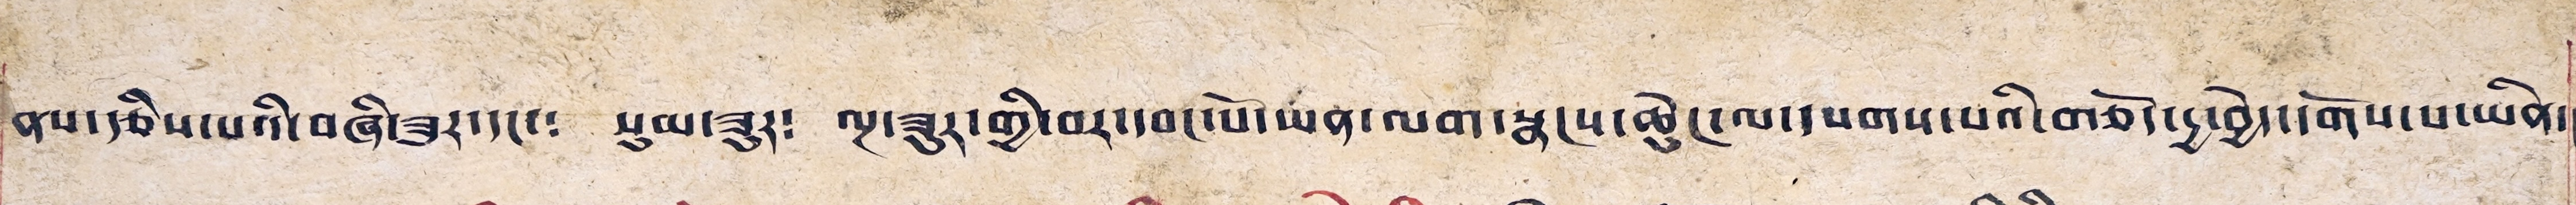ནས་རྩིས་པའི་བཞི་ཟུར་དང་༴ སུམ་ཟུར། ལྔ་ཟུར་གྱི་བར་དབང་པོ་ཡན་ལག་སྣངས་ཆེུང་ལ་དཔགས་པའི་གཅོད་དྱ་བྱེད་དགོས་པ་ཡིན།
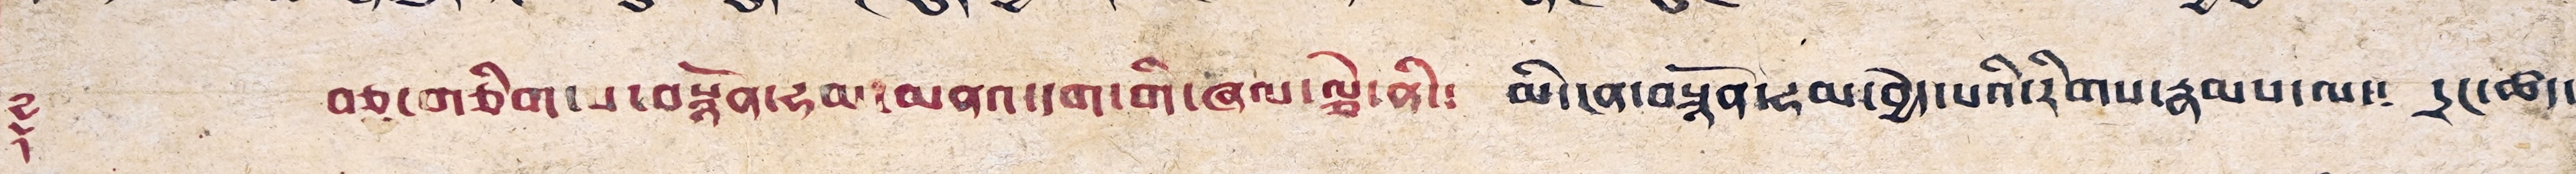༈ བཅུ་གཅིག་པ་བསྙོན་ཧམ་མནའ་དག་གི་ཞལ་ལྕེ་ནི་༴ མི་ངན་བསྙོན་ཧམ་བྱེད་པའི་རིགས་རྣམས་ལ་༴ དྲང་ཚད་
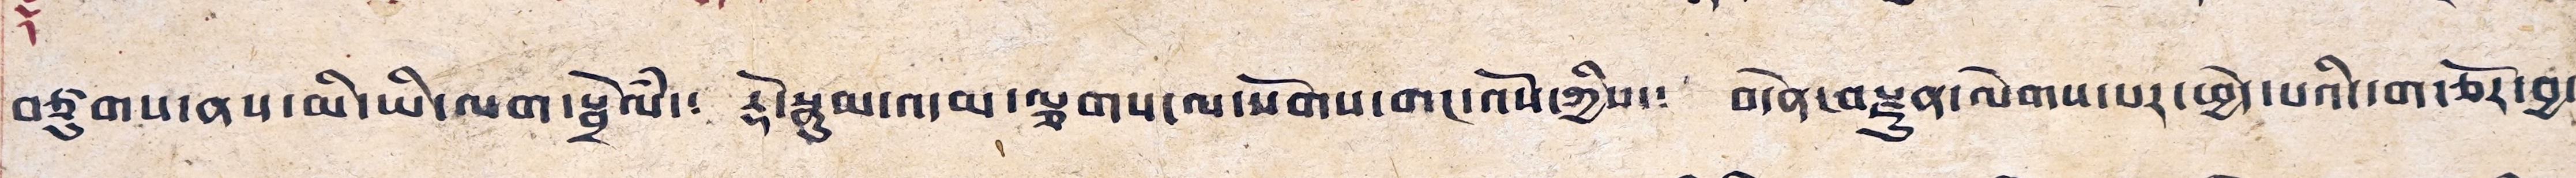བཙུགས་ནས་མི་ཡི་ལག་སྦྲེལཾ་༴ རྡོ་སྣུམ་འདམ་ལྕགས་ལ་སོགས་གང་འོས་ཀྱིས་༴ བདེན་བརྫུན་ལེགས་པར་ཕྱེད་པའི་གཙོར་བྱ༴
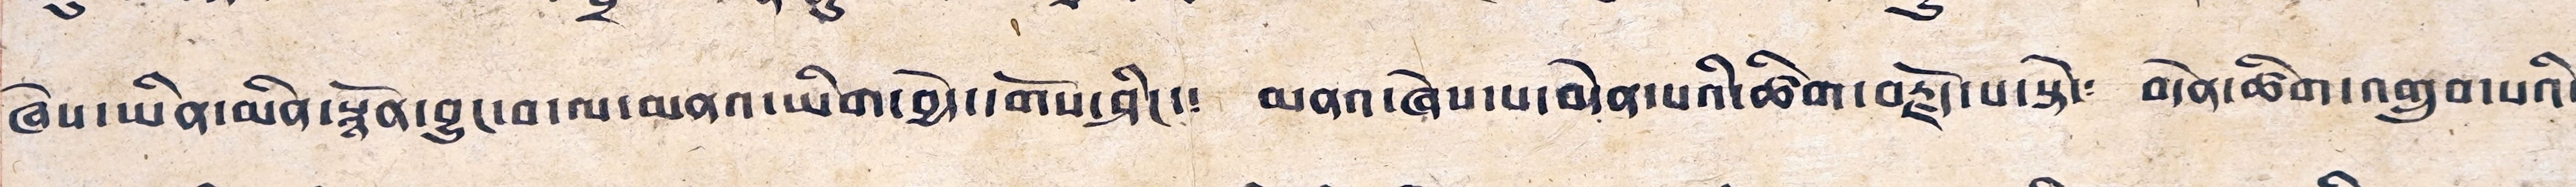ཞེས་ཡིན་མིན་སྙོན་བྱུང་བ་ལ་མནའ་ཡིག་བྱེད་དགོས་ཤིང་༴ མནའ་ཞེས་པ་བདེན་པའི་ཚིག་བརྗོད་པ་སྟེ་༴ བདེན་ཚིག་འགྲུབ་པའི་
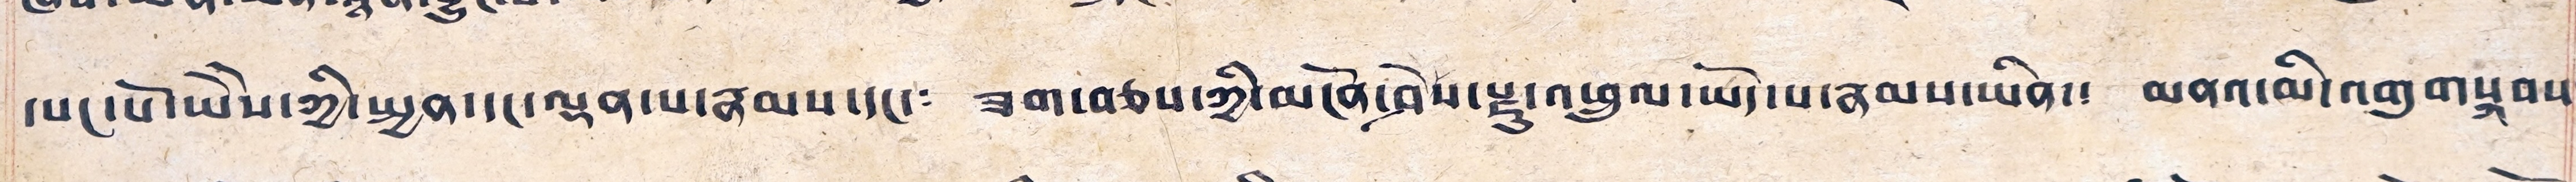དཔང་པོ་ཡཻས་ཀྱི་སྤྱན་དང་ལྡན་པ་རྣམས་དང་༴ ཟག་བཅས་ཀྱི་མངོན་ཤེས་རྫུ་འཕྲུལ་ཡོད་པ་རྣམས་ཡིན་༴ མནའ་མི་འགུགསྐབས༴
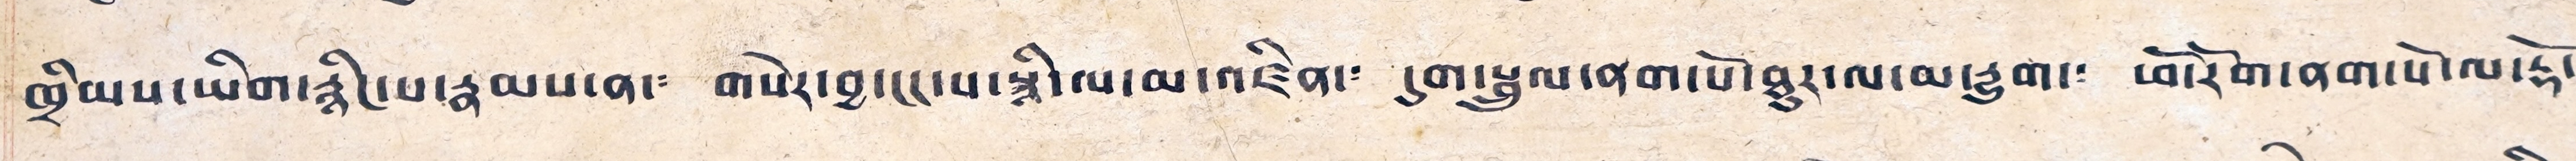ཁྲིམས་ཡིག་རྙིང་པ་རྣམས་ན་༴ གསེར་བྱ་ངང་པ་སྙི་ལ་མ་འཛིན་༴ དུག་སྦྲུལ་ནག་པོ་ཐུར་ལ་མ་དྱུག་༴ ཕོ་རོག་ནག་པོ་ལ་རྡོ་
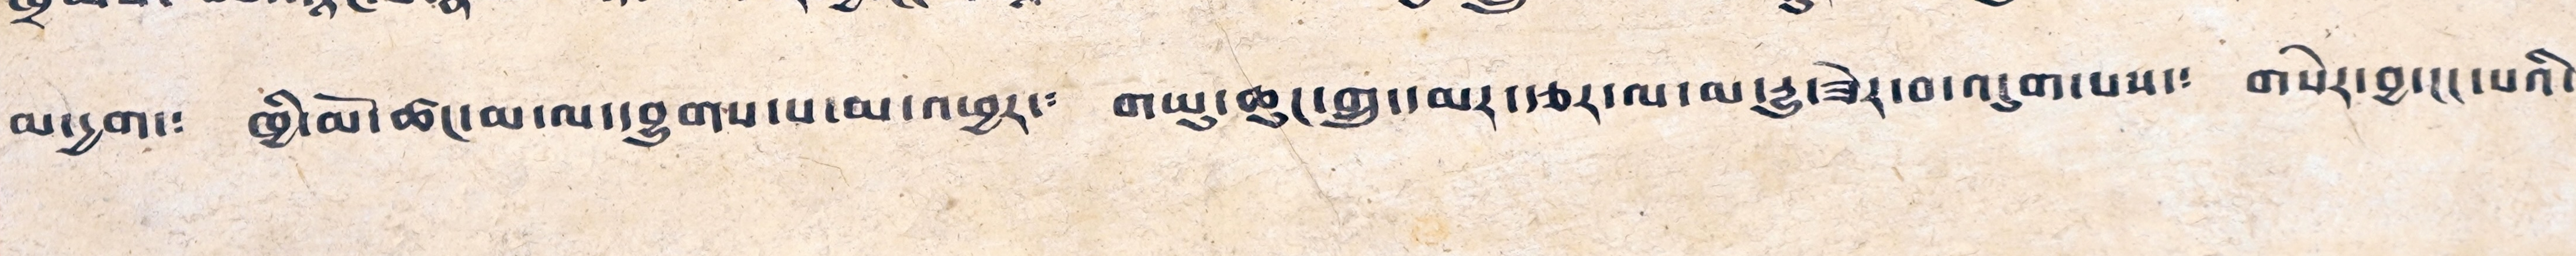མ་དྱག་༴ ཁྱི་མོ་ཚང་མ་ལ་དབྱུགས་པ་མ་འཕྱར་༴ གཡུ་ཆུང་གྲུ་དམར་རྩར་ལ་མ་དྱུ་ཟེར་བ་འདུག་པས་༴ གསེར་བྱ་ངང་པའི་
